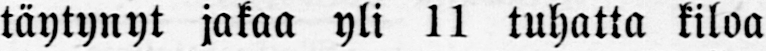täytynyt jakaa yli 11 tuhatta kiloa
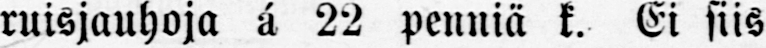ruisjauhoja ä 22 penniä k. Ei siis
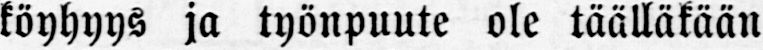köyhyys ja työnpuute ole täälläkään
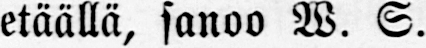etäällä, sanoo W. S.
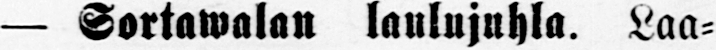— Sortawalan laulujuhla, Laa-
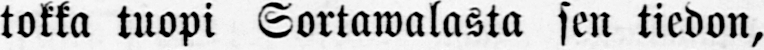tokka tuopi Sortawalasta sen tiedon,
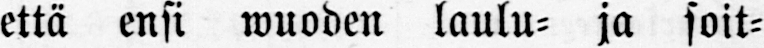että ensi wuoden laulu- ja soit-
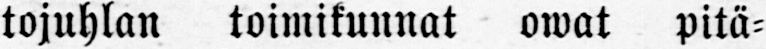tojuhlan toimikunnat owat pitä-
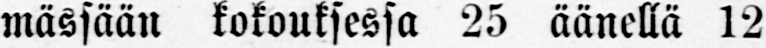mässään kokouksessa 25 äänellä 12
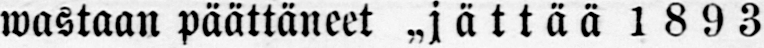wastaan päättäneet „jättää 1893
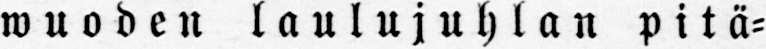wuoden laulujuhlan pitä-
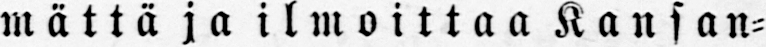mättä ja ilmoittaa Kansan-
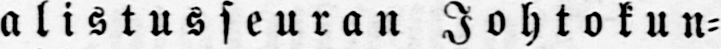walistusseuran Johtokun-
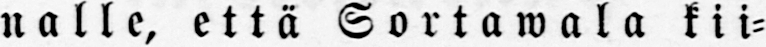nalle, että Sortawala kii-
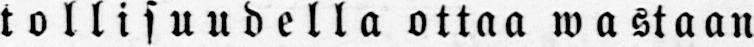tollisuudella ottaa wastaan
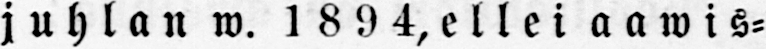juhlan w. 1894, ellei aawis-
